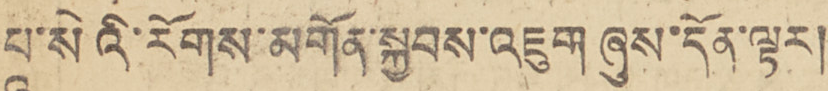པཱ་སེའི་རོགས་མགོན་སྐྱབས་འཇུག ཞུས་དོན་ལྟར།
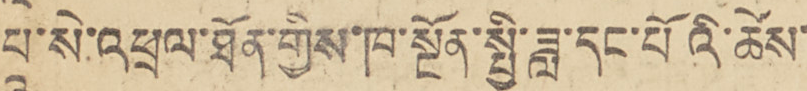པཱ་སེ་འཕྲན་ཐོན་གྱིས་ཁ་སྔོན་ཟླ་དང་པོའི་ཚེས་
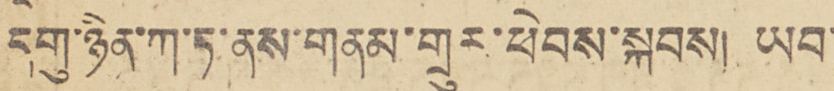དགུ་ཉིན་ཀ་ཏ་ནས་གནམ་གྲུར་ཕེབས་སྐབས། ཡབ་
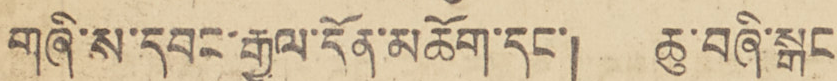གཞི་ས་དབང་རྒྱལ་དོན་མཆོག་དང་། ཆུ་བཞི་སྒང་
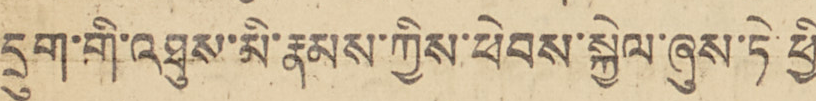དྲུག་གི་འཐུས་མི་རྣམས་ཀྱིས་ཕེབས་སྐྱེལ་ཞུས་ཏེ་ཕྱི་
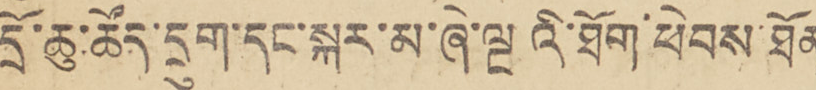དྲོ་ཆུ་ཚོད་དྲུག་དང་སྐར་མ་ཞེ་ལྔའི་ཐོག་ཕེབས་ཐོན་
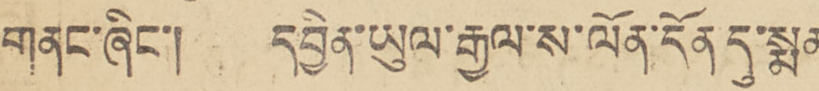གནང་ཞིང་། དབྱིན་ཡུལ་རྒྱལ་ས་ལོན་དོན དུ་སྨན་
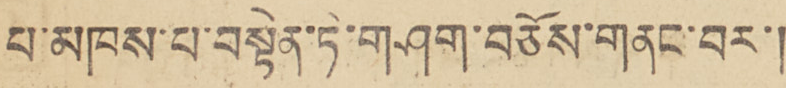པ་མཁས་པ་བསྟེན་ཏེ་གཤག་བཅོས་གནང་བར་།
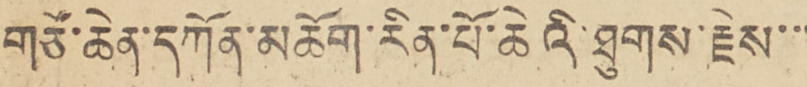གཙོ་ཆེན་དཀོན་མཆོག་རིན་པོ་ཆེའི་ཐུགས་རྗེས་་་
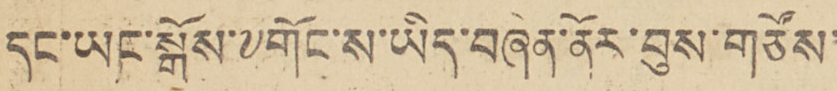དང་ཡང་སྒོས་༸གོང་ས་ཡིད་བཞིན་ནོར་བུས་གཙོས་
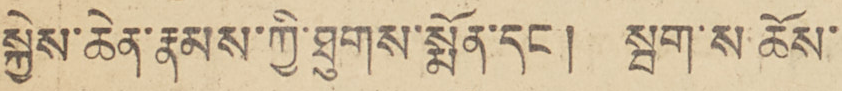སྐྱེན་ཆེན་རྣམས་ཀྱི་ཐུགས་སྨོན་དང། སྦག་ས ཆོས་
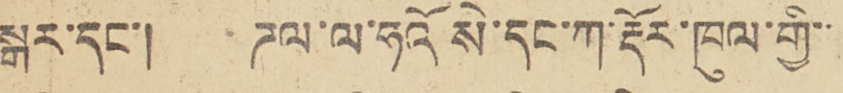སྒར་དང་། ཌལ་ལ་ཧའོ སེ་དང་ཀ་རྡོར་ཁུལ་གྱི་་
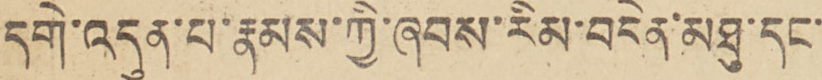དགེ་འདུན་པ་རྣམས་ཀྱི་ཞབས་རིམ་བདེན་མཐུ་དང་་
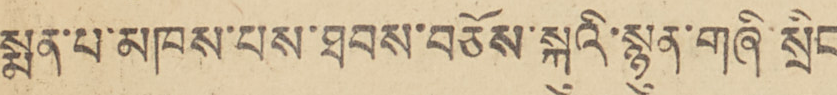སྨན་པ་མཁས་པས་ཐབས་བཅོས་སྐུའི་སྙུན་གཞི་སྲིང་
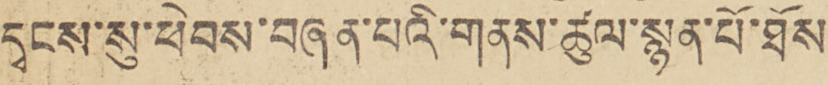དྭངས་སུ་ཕེབས་བཞན་པའི་གནས་ཚུལ་སྙན་པོ་ཐོས་
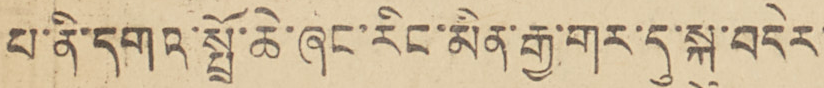པ་ནི་དགའ་སྤྲོ་ཆེ་ཞང་རིང་མིན་རྒྱ་གར་དུ་སྐུ་བདེར་་
